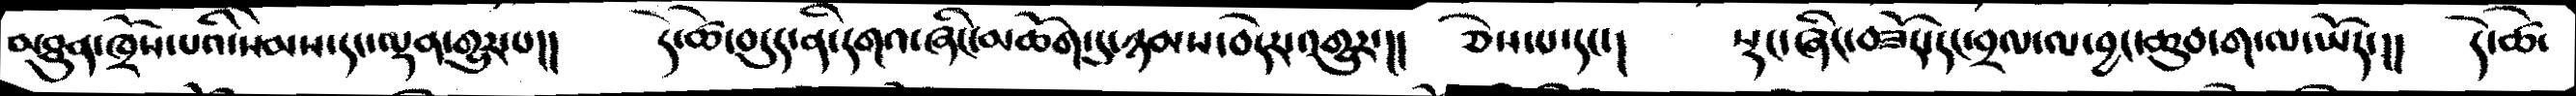མཐུན་ཁྲོས་པའི་སེམས་དང་ལྡན་གྱུར་པ།།  དེ་ཚེ་བདུད་ནི་དགའ་ཞིང་མཆོག་དུ་ཉམས་བདེར་གྱུར་།།  ཅེས་པ་དང་།  སྡང་ཞིང་བཟོད་དང་བྲལ་ལ་བྱང་ཆུབ་ག་ལ་ཡོད་།།  དེ་ཚེ་
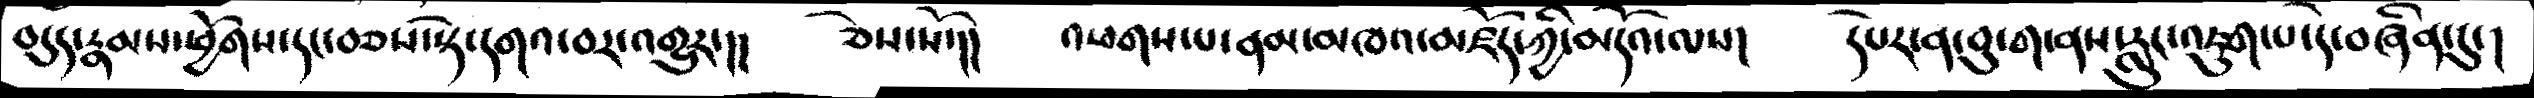བདུད་རྣམས་ཕྱོགས་དང་བཅས་དེ་དགའ་བར་འགྱུར་།།   ཅེས་སོ་།།  འཕགས་པ་ནམ་མཁའ་མཛོད་ཀྱི་མདོའ་ལས།  དཔེར་ན་བུ་ག་ནས་རླུང་འཇུག་པ་དེ་བཞིན་དུ་།
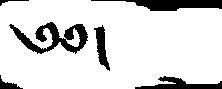༄༅།
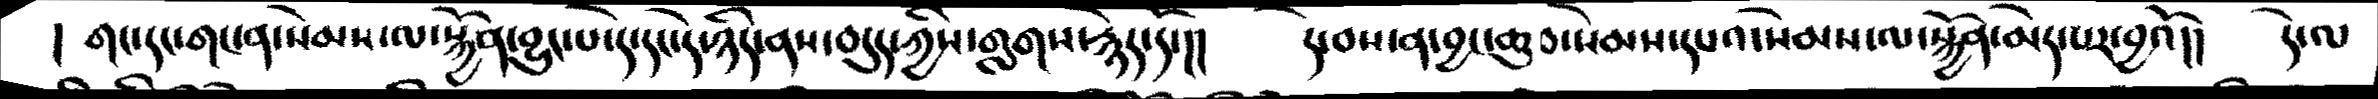།  གང་དང་གང་ན་སེམས་ལ་སྐྱོན་བྱུང་པ་དེ་དང་དེ་ཉིད་ནས་བདུད་ཀྱིས་གླགས་རྙེད་དོ་།།  དེ་བས་ན་བྱང་ཆུབ་སེམས་དཔའ་སེམས་ལ་སྐྱོན་མེད་པར་བྱའོ།།  དེ་ལ
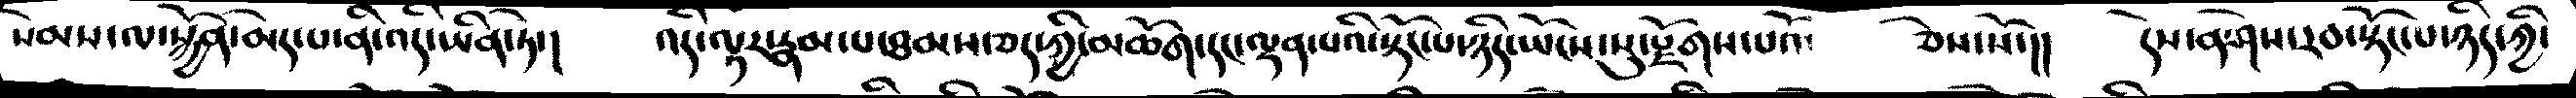སེམས་ལ་སྐྱོན་མེད་པ་ནི་འདི་ཡིན་ཏེ་།   འདི་ལྟར་རྣམ་པ་ཐམས་ཅད་ཀྱི་མཆོག་དང་ལྡན་པའི་སྟོང་པ་ཉིད་ཡོངས་སུ་རྫོགས་པའོ་    ཅེས་སོ་།  དེས་ན་ཤེས་རབ་སྟོང་པ་ཉིད་ཀྱི་
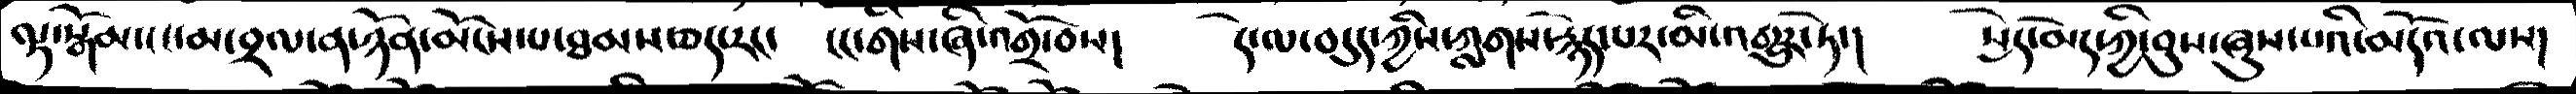ལྟ་སྒོམ་ངང་མ་བྲལ་ན་ཉོན་མོངས་པ་ཐམས་ཅད་རང་ངང་གིས་ཞི་འགྲོ་བས།      དེ་ལ་བདུད་ཀྱིས་ཀླགས་རྙེད་པར་མི་འགྱུར་ཏེ་།     སྲེད་མེད་ཀྱི་བུས་ཞུས་པའི་མདོའ་ལས་
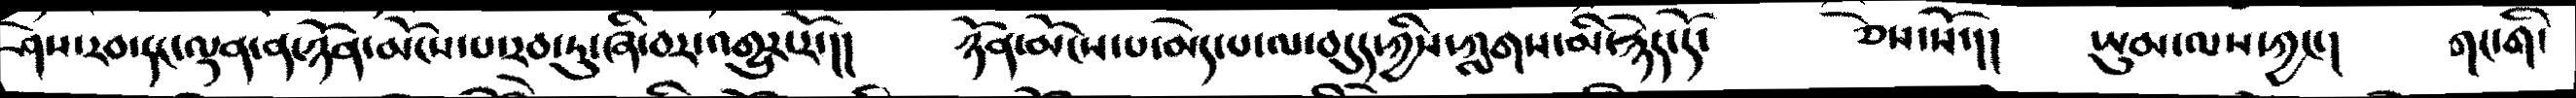ཤེས་རབ་དང་ལྡན་ན་ཉོན་མོངས་པ་རབ་ཏུ་ཞི་བར་འགྱུར་རོ་།།    ཉོན་མོངས་པ་མེད་པ་ལ་བདུད་ཀྱིས་ཀླགས་མི་རྙེད་དོ་      ཅེས་སོ་།།    ཡུམ་ལས་ཀྱང་།    གང་གི་
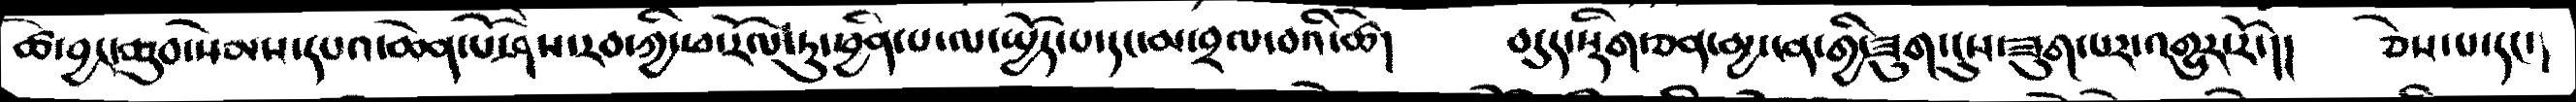ཚེ་བྱང་ཆུབ་སེམས་དཔའ་ཆེན་པོ་ཤེས་རབ་ཀྱི་ཕ་རོལ་ཏུ་ཕྱིན་པ་ལ་ཡྱོད་པ་དང་མ་བྲལ་བའི་ཚེ།   བདུད་སྡིག་ཅན་མྱ་ངན་གྱི་ཟུག་ངུས་ཟུག་པར་འགྱུར་རོ་།།   ཅེས་པ་དང་།
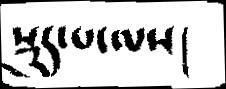སྡུད་པ་ལས།
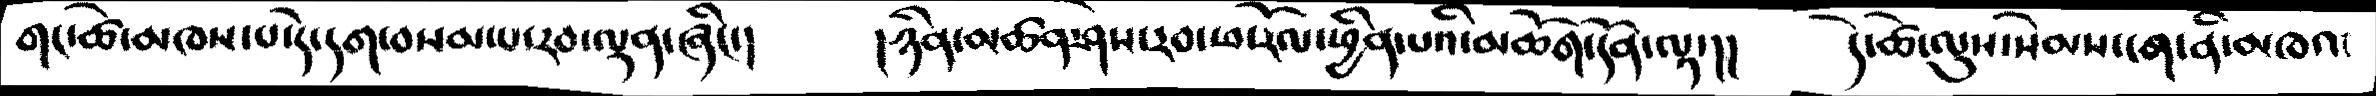གང་ཚེ་མཁས་པ་དེ་དག་བསམ་པ་རབ་ལྡན་ཞིང་།      །ཉིན་མཚན་ཤེས་རབ་ཕ་རོལ་ཕྱིན་པའི་མཆོག་དོན་ལྟ་།།      དེ་ཚེ་ལུས་སེམས་ངག་ནི་མཁའ།
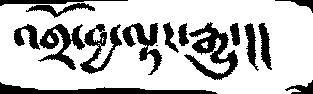འགྲོ་བྱ་ལྟར་རྒྱུ་།།
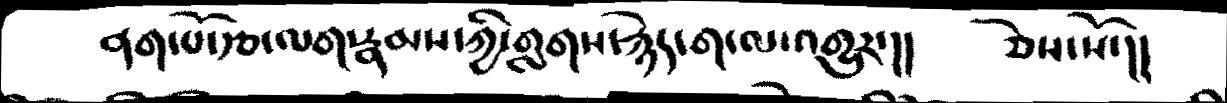ནག་པོ་རྩ་ལག་རྣམས་ཀྱི་གླགས་རྙེད་ག་ལ་འགྱུར་།།    ཅེས་སོ་།།
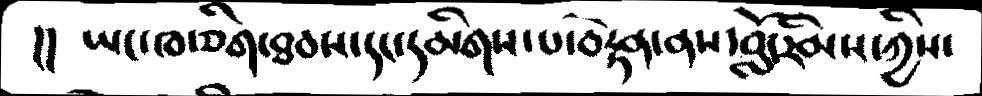།། ཡང་ཁ་ཅིག་ཐབས་དང་དམིགས་པ་བརྟེན་ནས་བློ་རིམས་ཀྱིས་
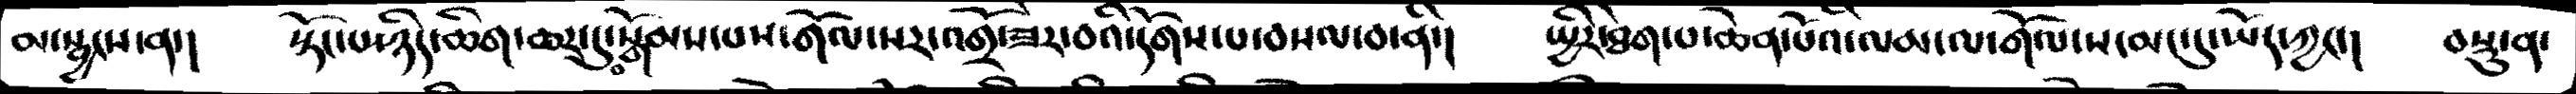མ་སྦྱངས་ན་།    སྟོང་པ་ཉིད་ཆིག་ཆར་དུ་བ་སྒོམས་པས་གོལ་སར་འགྲོ་ཟེར་བའི་དོགསཔ་བསལ་བ་ནི་།    ཡྱིར་ཐེག་པ་ཆེན་པོའི་ལམ་ལ་གོལ་ས་མང་དུ་ཡོད་ཀྱང་།  བསྡུ་ན་
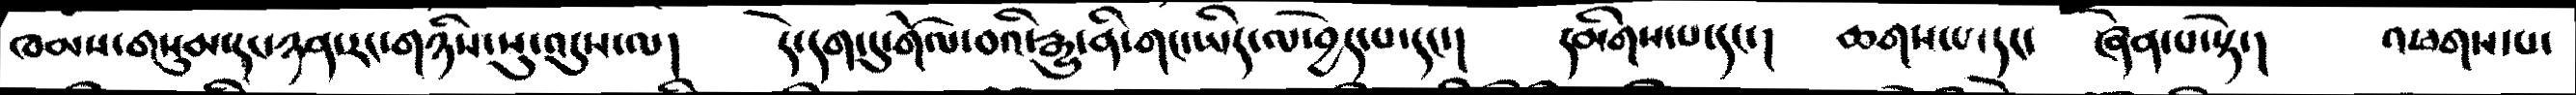ཁམས་གསུམ་དང་ཉན་རང་གཉིས་སུ་འདུས་ལ།    དེ་དག་དུ་གོལ་བའི་རྒྱུ་ནི་གང་ཡིད་ལ་བྱེད་པ་དང་།   དམིགས་པ་དང་།   ཆགས་པ་དང་   ཞེན་པ་སྟེ་།   འཕགས་པ་
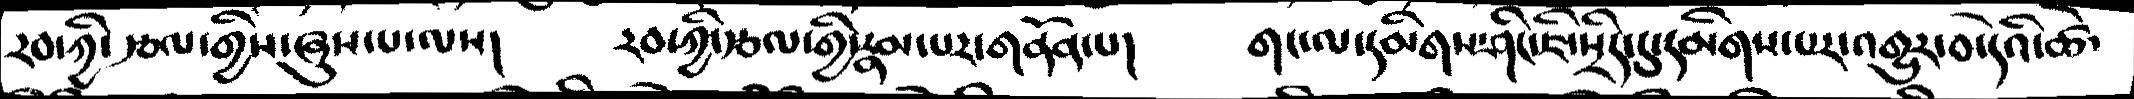རབ་ཀྱི་རྩལ་གྱིས་ཞུས་པ་ལས་།   རབ་ཀྱི་རྩལ་གྱི་རྣམ་པར་གནོན་པ།    གང་ལ་དམིགས་ཤིང་ཇི་སྲིད་དུ་དམིགས་པར་འགྱུར་བ་དེའི་ཚེ་
